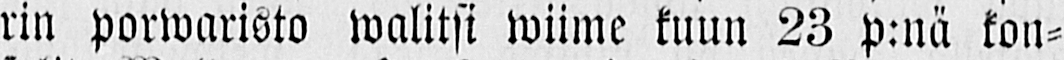rin porwaristo walitsi wiime kuun 23 p:nä kon-
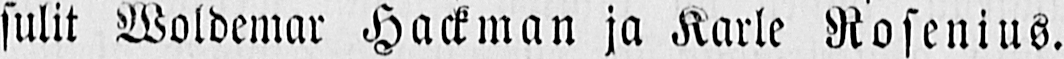sulit Woldemar Hackman ja Karle Rosenius.
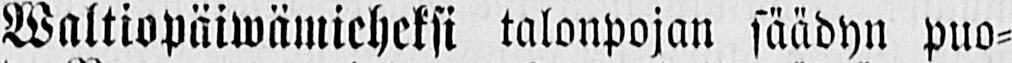Waltiopäiwämieheksi talonpojan säädyn puo-
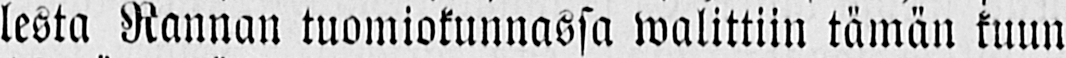lesta Rannan tuomiokunnassa walittiin tämän kuun
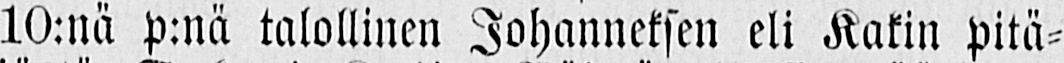10:nä p:nä talollinen Johanneksen eli Kakin pitä-
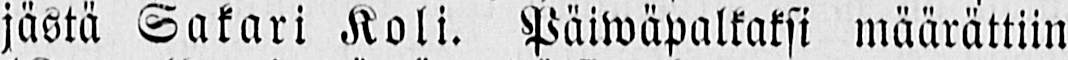jästä Sakari Koli. Päiwäpalkaksi määrättiin
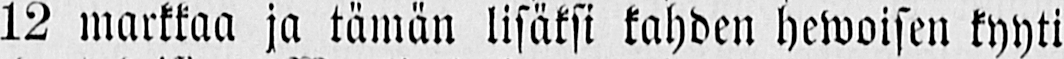12 markkaa ja tämän lisäksi kahden hewoisen kyyti
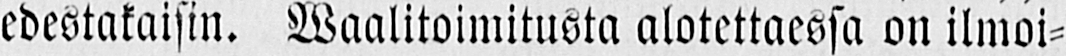edestakaisin. Waalitoimitusta alotettaessa on ilmoi-
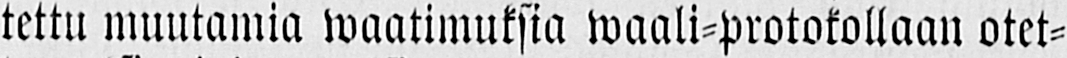tettu muutamia waatimuksia waali-protokollaan otet-
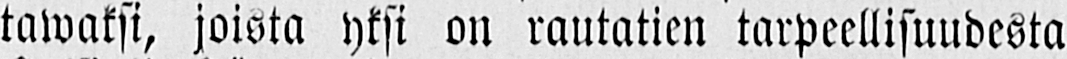tawaksi, joista yksi on rautatien tarpeellisuudesta
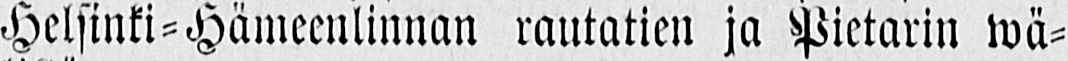Helsinki-Hämeenlinnan rautatien ja Pietarin wä-
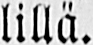lillä.
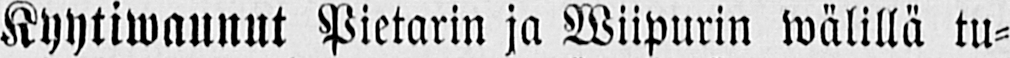Kyytiwaunut Pietarin ja Wiipurin wälillä tu-
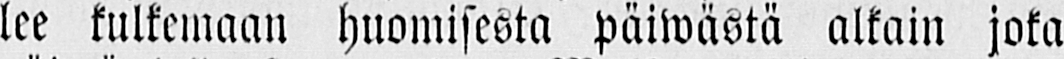lee kulkemaan huomisesta päiwästä alkain joka
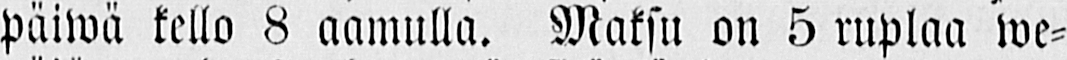päiwä kello 8 aamulla. Maksu on 5 ruplaa we-
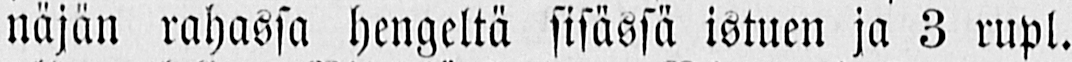näjän rahassa hengeltä sisässä istuen ja 3 rupl.
